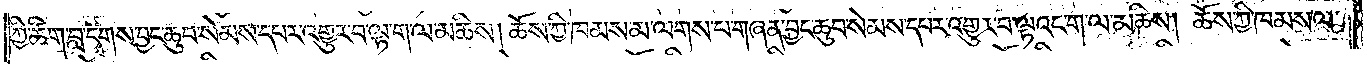ཀྱི་ཚིག་བླ་དྭགས་བྱང་ཆུབ་སེམས་དཔར་འགྱུར་བ་ལྟ་ག་ལ་མཆིས། ཆོས་ཀྱི་ཁམས་མ་ལགས་པ་གཞན་བྱང་ཆུབ་སེམས་དཔར་འགྱུར་བ་ལྟའང་ག་ལ་མཆིས། ཆོས་ཀྱི་ཁམས་ལ་
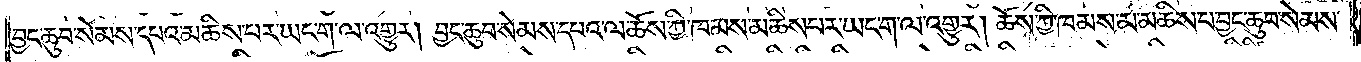བྱང་ཆུབ་སེམས་དཔའ་མཆིས་པར་ཡང་ག་ལ་འགྱུར། བྱང་ཆུབ་སེམས་དཔའ་ལ་ཆོས་ཀྱི་ཁམས་མཆིས་པར་ཡང་ག་ལ་འགྱུར། ཆོས་ཀྱི་ཁམས་མ་མཆིས་པ་བྱང་ཆུབ་སེམས་
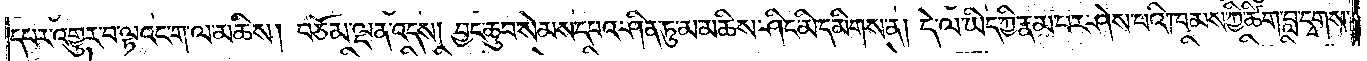དཔར་འགྱུར་བ་ལྟའང་ག་ལ་མཆིས། བཅོམ་ལྡན་འདས། བྱང་ཆུབ་སེམས་དཔའ་ཤིན་ཏུ་མ་མཆིས་ཤིང་མི་དམིགས་ན། དེ་ལ་ཡིད་ཀྱི་རྣམ་པར་ཤེས་པའི་ཁམས་ཀྱི་ཚིག་བླ་དྭགས་
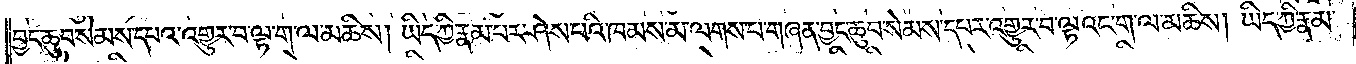བྱང་ཆུབ་སེམས་དཔའ་འགྱུར་བ་ལྟ་ག་ལ་མཆིས། ཡིད་ཀྱི་རྣམ་པར་ཤེས་པའི་ཁམས་མ་ལགས་པ་གཞན་བྱང་ཆུབ་སེམས་དཔར་འགྱུར་བ་ལྟའང་ག་ལ་མཆིས། ཡིད་ཀྱི་རྣམ་
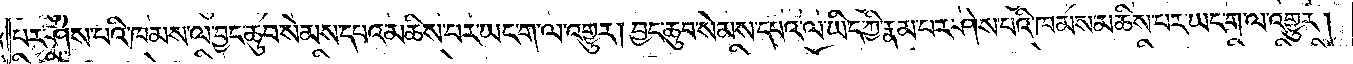པར་ཤེས་པའི་ཁམས་ལ་བྱང་ཆུབ་སེམས་དཔའ་མཆིས་པར་ཡང་ག་ལ་འགྱུར། བྱང་ཆུབ་སེམས་དཔའ་ལ་ཡིད་ཀྱི་རྣམ་པར་ཤེས་པའི་ཁམས་མཆིས་པར་ཡང་ག་ལ་འགྱུར།
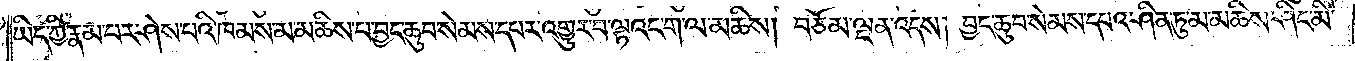ཡིད་ཀྱི་རྣམ་པར་ཤེས་པའི་ཁམས་མ་མཆིས་པ་བྱང་ཆུབ་སེམས་དཔར་འགྱུར་བ་ལྟའང་ག་ལ་མཆིས། བཅོམ་ལྡན་འདས། བྱང་ཆུབ་སེམས་དཔའ་ཤིན་ཏུ་མ་མཆིས་ཤིང་མི་
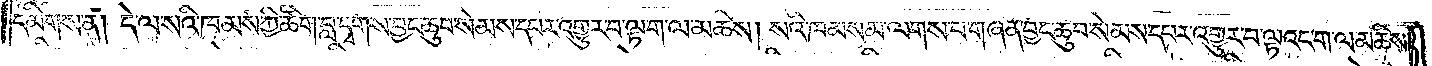དམིགས་ན། དེ་ལ་སའི་ཁམས་ཀྱི་ཚིག་བླ་དྭགས་བྱང་ཆུབ་སེམས་དཔར་འགྱུར་བ་ལྟ་ག་ལ་མཆིས། སའི་ཁམས་མ་ལགས་པ་གཞན་བྱང་ཆུབ་སེམས་དཔར་འགྱུར་བ་ལྟའང་ག་ལ་མཆིས།
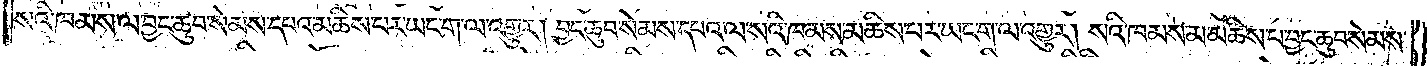སའི་ཁམས་ལ་བྱང་ཆུབ་སེམས་དཔའ་མཆིས་པར་ཡང་ག་ལ་འགྱུར། བྱང་ཆུབ་སེམས་དཔའ་ལ་སའི་ཁམས་མཆིས་པར་ཡང་ག་ལ་འགྱུར། སའི་ཁམས་མ་མཆིས་པ་བྱང་ཆུབ་སེམས་
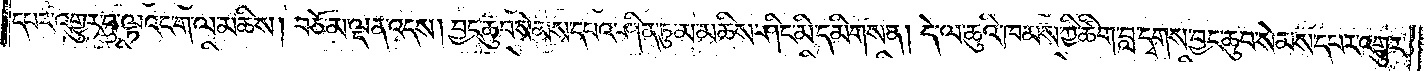དཔར་འགྱུར་བ་ལྟའང་ག་ལ་མཆིས། བཅོམ་ལྡན་འདས། བྱང་ཆུབ་སེམས་དཔའ་ཤིན་ཏུ་མ་མཆིས་ཤིང་མི་དམིགས་ན། དེ་ལ་ཆུའི་ཁམས་ཀྱི་ཚིག་བླ་དྭགས་བྱང་ཆུབ་སེམས་དཔར་འགྱུར་
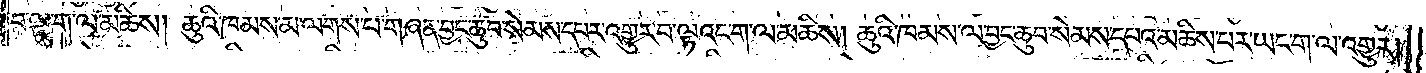བ་ལྟ་ག་ལ་མཆིས། ཆུའི་ཁམས་མ་ལགས་པ་གཞན་བྱང་ཆུབ་སེམས་དཔར་འགྱུར་བ་ལྟའང་ག་ལ་མཆིས། ཆུའི་ཁམས་ལ་བྱང་ཆུབ་སེམས་དཔའ་མཆིས་པར་ཡང་ག་ལ་འགྱུར།
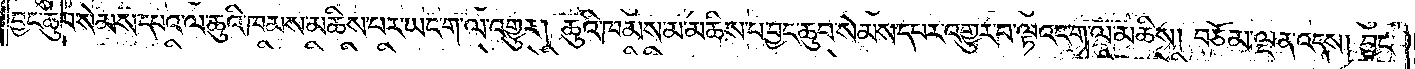བྱང་ཆུབ་སེམས་དཔའ་ལ་ཆུའི་ཁམས་མཆིས་པར་ཡང་ག་ལ་འགྱུར། ཆུའི་ཁམས་མ་མཆིས་པ་བྱང་ཆུབ་སེམས་དཔར་འགྱུར་བ་ལྟའང་ག་ལ་མཆིས། བཅོམ་ལྡན་འདས། བྱང་
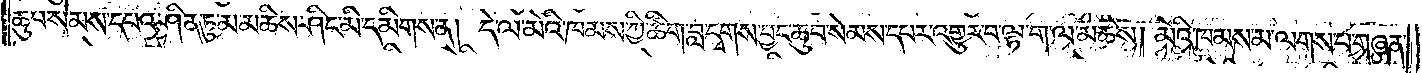ཆུབ་སེམས་དཔའ་ཤིན་ཏུ་མ་མཆིས་ཤིང་མི་དམིགས་ན། དེ་ལ་མེའི་ཁམས་ཀྱི་ཚིག་བླ་དྭགས་བྱང་ཆུབ་སེམས་དཔར་འགྱུར་བ་ལྟ་ག་ལ་མཆིས། མེའི་ཁམས་མ་ལགས་པ་གཞན་
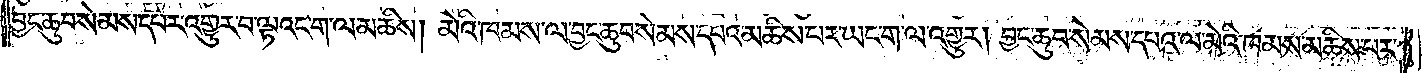བྱང་ཆུབ་སེམས་དཔར་འགྱུར་བ་ལྟའང་ག་ལ་མཆིས། མེའི་ཁམས་ལ་བྱང་ཆུབ་སེམས་དཔའ་མཆིས་པར་ཡང་ག་ལ་འགྱུར། བྱང་ཆུབ་སེམས་དཔའ་ལ་མེའི་ཁམས་མཆིས་པར་
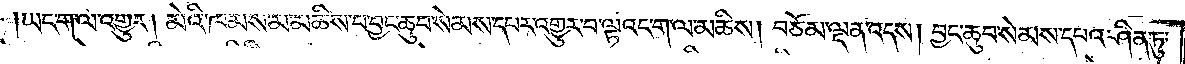ཡང་ག་ལ་འགྱུར། མེའི་ཁམས་མ་མཆིས་པ་བྱང་ཆུབ་སེམས་དཔར་འགྱུར་བ་ལྟའང་ག་ལ་མཆིས། བཅོམ་ལྡན་འདས། བྱང་ཆུབ་སེམས་དཔའ་ཤིན་ཏུ་
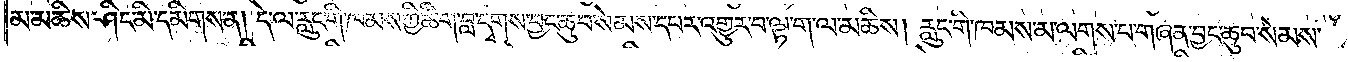མ་མཆིས་ཤིང་མི་དམིགས་ན། དེ་ལ་རླུང་གི་ཁམས་ཀྱི་ཚིག་བླ་དྭགས་བྱང་ཆུབ་སེམས་དཔར་འགྱུར་བ་ལྟ་ག་ལ་མཆིས། རླུང་གི་ཁམས་མ་ལགས་པ་གཞན་བྱང་ཆུབ་སེམས་
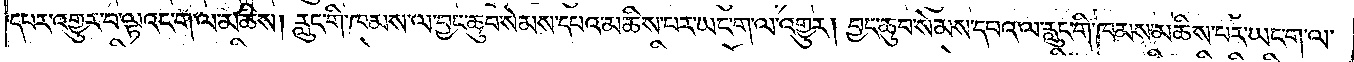དཔར་འགྱུར་བ་ལྟའང་ག་ལ་མཆིས། རླུང་གི་ཁམས་ལ་བྱང་ཆུབ་སེམས་དཔའ་མཆིས་པར་ཡང་ག་ལ་འགྱུར། བྱང་ཆུབ་སེམས་དཔའ་ལ་རླུང་གི་ཁམས་མཆིས་པར་ཡང་ག་ལ་
